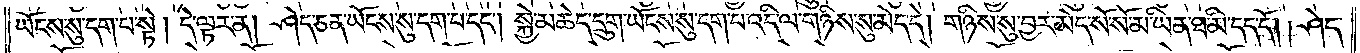ཡོངས་སུ་དག་པ་སྟེ། དེ་ལྟར་ན། ཤེད་ཅན་ཡོངས་སུ་དག་པ་དང༌། སྐྱེ་མཆེད་དྲུག་ཡོངས་སུ་དག་པ་འདི་ལ་གཉིས་སུ་མེད་དེ། གཉིས་སུ་བྱར་མེད་སོ་སོ་མ་ཡིན་ཐ་མི་དད་དོ། །ཤེད་
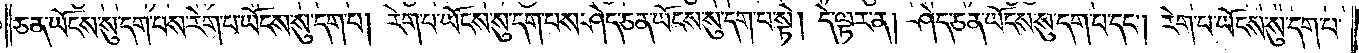ཅན་ཡོངས་སུ་དག་པས་རེག་པ་ཡོངས་སུ་དག་པ། རེག་པ་ཡོངས་སུ་དག་པས་ཤེད་ཅན་ཡོངས་སུ་དག་པ་སྟེ། དེ་ལྟར་ན། ཤེད་ཅན་ཡོངས་སུ་དག་པ་དང༌། རེག་པ་ཡོངས་སུ་དག་པ་
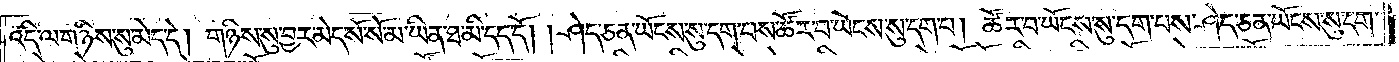འདི་ལ་གཉིས་སུ་མེད་དེ། གཉིས་སུ་བྱར་མེད་སོ་སོ་མ་ཡིན་ཐ་མི་དད་དོ། །ཤེད་ཅན་ཡོངས་སུ་དག་པས་ཚོར་བ་ཡོངས་སུ་དག་པ། ཚོར་བ་ཡོངས་སུ་དག་པས་ཤེད་ཅན་ཡོངས་སུ་དག་
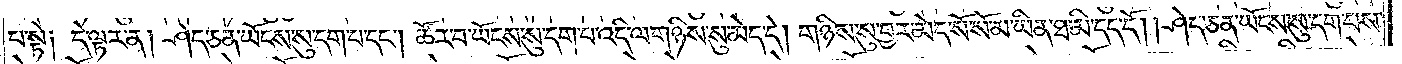པ་སྟེ། དེ་ལྟར་ན། ཤེད་ཅན་ཡོངས་སུ་དག་པ་དང༌། ཚོར་བ་ཡོངས་སུ་དག་པ་འདི་ལ་གཉིས་སུ་མེད་དེ། གཉིས་སུ་བྱར་མེད་སོ་སོ་མ་ཡིན་ཐ་མི་དད་དོ། །ཤེད་ཅན་ཡོངས་སུ་དག་པས་
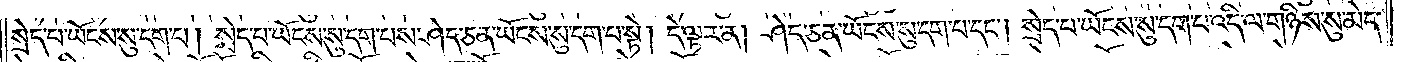སྲེད་པ་ཡོངས་སུ་དག་པ། སྲེད་པ་ཡོངས་སུ་དག་པས་ཤེད་ཅན་ཡོངས་སུ་དག་པ་སྟེ། དེ་ལྟར་ན། ཤེད་ཅན་ཡོངས་སུ་དག་པ་དང༌། སྲེད་པ་ཡོངས་སུ་དག་པ་འདི་ལ་གཉིས་སུ་མེད་
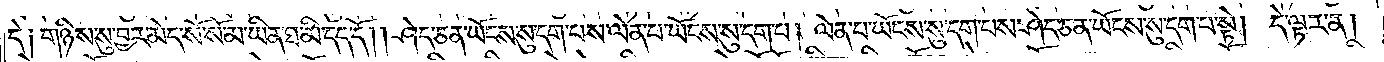དེ། གཉིས་སུ་བྱར་མེད་སོ་སོ་མ་ཡིན་ཐ་མི་དད་དོ། །ཤེད་ཅན་ཡོངས་སུ་དག་པས་ལེན་པ་ཡོངས་སུ་དག་པ། ལེན་པ་ཡོངས་སུ་དག་པས་ཤེད་ཅན་ཡོངས་སུ་དག་པ་སྟེ། དེ་ལྟར་ན།
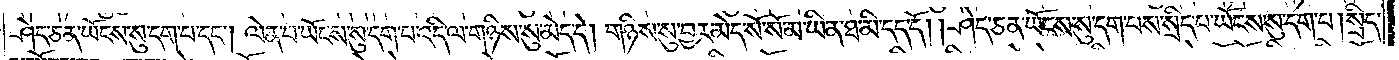ཤེད་ཅན་ཡོངས་སུ་དག་པ་དང༌། ལེན་པ་ཡོངས་སུ་དག་པ་འདི་ལ་གཉིས་སུ་མེད་དེ། གཉིས་སུ་བྱར་མེད་སོ་སོ་མ་ཡིན་ཐ་མི་དད་དོ། །ཤེད་ཅན་ཡོངས་སུ་དག་པས་སྲིད་པ་ཡོངས་སུ་དག་པ། སྲིད་
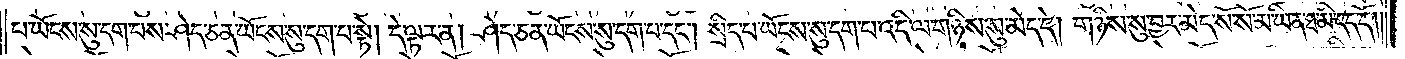པ་ཡོངས་སུ་དག་པས་ཤེད་ཅན་ཡོངས་སུ་དག་པ་སྟེ། དེ་ལྟར་ན། ཤེད་ཅན་ཡོངས་སུ་དག་པ་དང༌། སྲིད་པ་ཡོངས་སུ་དག་པ་འདི་ལ་གཉིས་སུ་མེད་དེ། གཉིས་སུ་བྱར་མེད་སོ་སོ་མ་ཡིན་ཐ་མི་དད་དོ། །
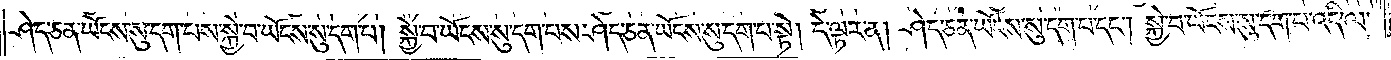ཤེད་ཅན་ཡོངས་སུ་དག་པས་སྐྱེ་བ་ཡོངས་སུ་དག་པ། སྐྱེ་བ་ཡོངས་སུ་དག་པས་ཤེད་ཅན་ཡོངས་སུ་དག་པ་སྟེ། དེ་ལྟར་ན། ཤེད་ཅན་ཡོངས་སུ་དག་པ་དང༌། སྐྱེ་བ་ཡོངས་སུ་དག་པ་འདི་ལ་
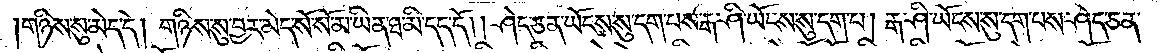གཉིས་སུ་མེད་དེ། གཉིས་སུ་བྱར་མེད་སོ་སོ་མ་ཡིན་ཐ་མི་དད་དོ། །ཤེད་ཅན་ཡོངས་སུ་དག་པས་རྒ་ཤི་ཡོངས་སུ་དག་པ། རྒ་ཤི་ཡོངས་སུ་དག་པས་ཤེད་ཅན་
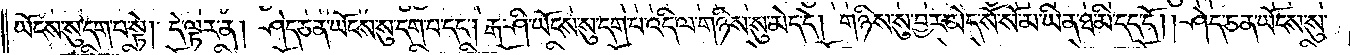ཡོངས་སུ་དག་པ་སྟེ། དེ་ལྟར་ན། ཤེད་ཅན་ཡོངས་སུ་དག་པ་དང༌། རྒ་ཤི་ཡོངས་སུ་དག་པ་འདི་ལ་གཉིས་སུ་མེད་དེ། གཉིས་སུ་བྱར་མེད་སོ་སོ་མ་ཡིན་ཐ་མི་དད་དོ། །ཤེད་ཅན་ཡོངས་སུ་
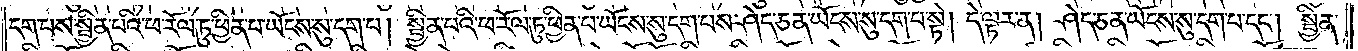དག་པས་སྦྱིན་པའི་ཕ་རོལ་ཏུ་ཕྱིན་པ་ཡོངས་སུ་དག་པ། སྦྱིན་པའི་ཕ་རོལ་ཏུ་ཕྱིན་པ་ཡོངས་སུ་དག་པས་ཤེད་ཅན་ཡོངས་སུ་དག་པ་སྟེ། དེ་ལྟར་ན། ཤེད་ཅན་ཡོངས་སུ་དག་པ་དང་སྦྱིན་
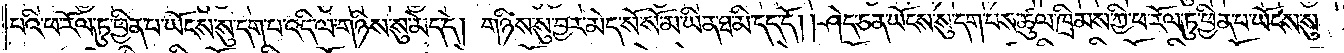པའི་ཕ་རོལ་ཉུ་ཕྱིན་པ་ཡོངས་སུ་དག་པ་འདི་ལ་གཉིས་སུ་མེད་དེ། གཉིས་སུ་བྱར་མེད་སོ་སོ་མ་ཡིན་ཐ་མི་དད་དོ། །ཤེད་ཅན་ཡོངས་སུ་དག་པས་ཚུལ་ཁྲིམས་ཀྱི་ཕ་རོལ་ཏུ་ཕྱིན་པ་ཡོངས་སུ་
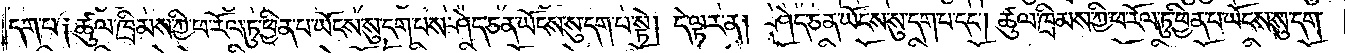དག་པ༑ ཚུལ་ཁྲིམས་ཀྱི་ཕ་རོལ་ཏུ་ཕྱིན་པ་ཡོངས་སུ་དག་པས་ཤེད་ཅན་ཡོངས་སུ་དག་པ་སྟེ། དེ་ལྟར་ན། ཤེད་ཅན་ཡོངས་སུ་དག་པ་དང༌། ཚུལ་ཁྲིམས་ཀྱི་ཕ་རོལ་ཏུ་ཕྱིན་པ་ཡོངས་སུ་དག་
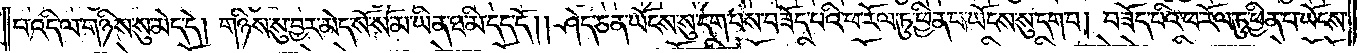པ་འདི་ལ་གཉིས་སུ་མེད་དེ། གཉིས་སུ་བྱར་མེད་སོ་སོ་མ་ཡིན་ཐ་མི་དད་དོ། །ཤེད་ཅན་ཡོངས་སུ་དག་པས་བཟོད་པའི་ཕ་རོལ་ཏུ་ཕྱིན་པ་ཡོངས་སུ་དག་པ། བཟོད་པའི་ཕ་རོལ་ཏུ་ཕྱིན་པ་ཡོངས་
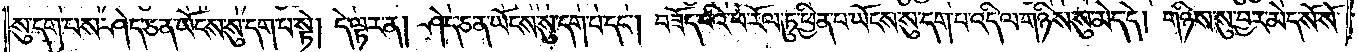སུ་དག་པས་ཤེད་ཅན་ཡོངས་སུ་དག་པ་སྟེ། དེ་ལྟར་ན། ཤེད་ཅན་ཡོངས་སུ་དག་པ་དང༌། བཟོད་པའི་ཕ་རོལ་ཏུ་ཕྱིན་པ་ཡོངས་སུ་དག་པ་འདི་ལ་གཉིས་སུ་མེད་དེ། གཉིས་སུ་བྱར་མེད་སོ་སོ་
